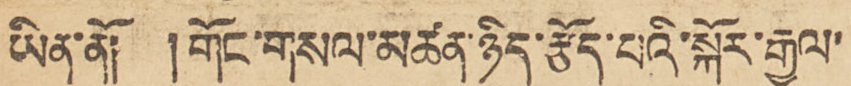ཡིན་ནོ། །གོང་གསལ་མཚན་ཉིད་རྩོད་པའི་སྐོར་རྒྱལ་
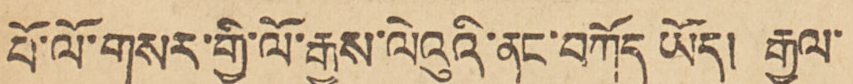པོ་ལོ་གསར་གྱི་ལོ་རྒྱུས་ལེའུའི་ནང་བཀོད ཡོད། རྒྱལ་
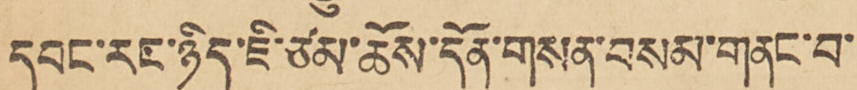དབང་རང་ཉིད་ཇི་ཙམ་ཆོས་དོན་གསན་བསམ་གནང་བ་
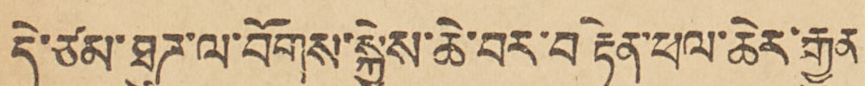དེ་ཙམ་ཐུཊ་ལ་བོགས་སྐྱེས་ཆེ་བར་བརྟེན་ཕལ་ཆེར་རྒྱུན་
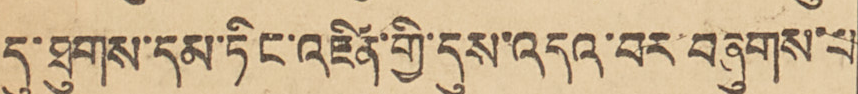དུ་ཐུགས་དམ་ཏིང་འཛིན་གྱི་དུས་འདའ་བར་བཞུགས་པ
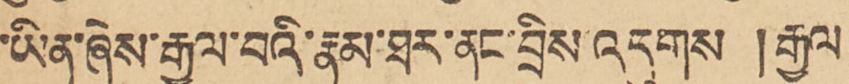ཡིན་ཞེས་རྒྱལ་བའི་རྣམ་ཐར་ནང་བྲིས འདུགས །རྒྱལ་
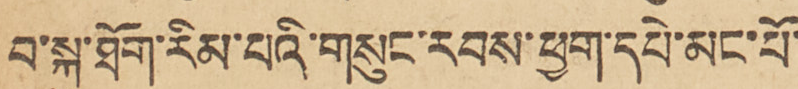བ་སྐུ་ཐོག་རིམ་པའི་གསུང་རབས་ཕྱག་དཔེ་མང་པོ་
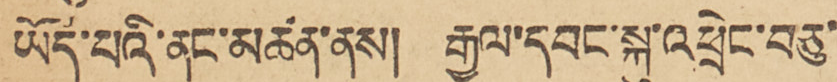ཡོད་པའི་ནང་མཚན་ནས། རྒྱལ་དབང་སྐུ་འཕྲེང་བཅུ་
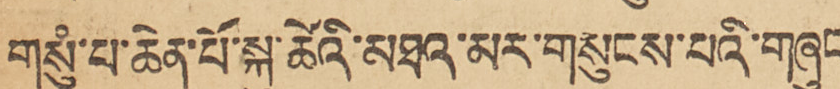གསུཾ་པ་ཆེན་པོ་སྐུ་ཚེའི་མཐའ་མར་གསུངས་པའི་གཞུང་
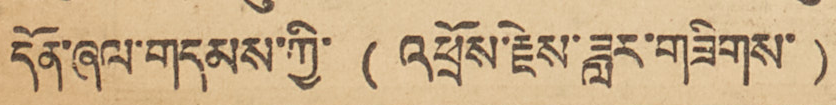དོན་ཞལ་གདམས་ཀྱི་ ( འཕྲོས་རྗེས་ཟླར་གཟིགས་ )
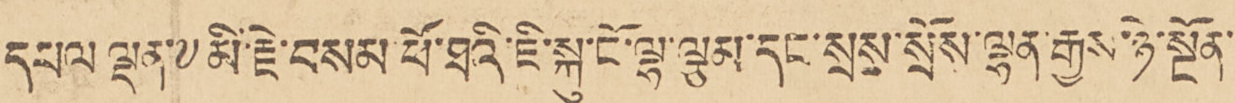དཔལ ལྡན་༸མི་རྗེ་བསམ་ཕོ་ཐའི་ཇི་སྐུ་ངོ་ལྷ་ལྕམ་དང་སྲས་སྲོས་ལྷན་རྒྱས་ཉེ་སྔོན་
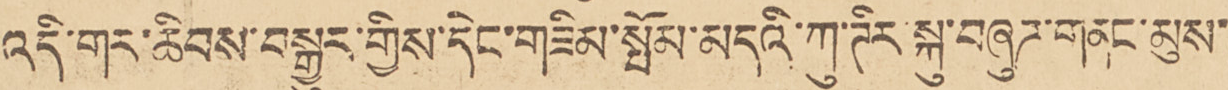འདི་གར་ཆིབས་བསྒྱུར་གྱིས་དེང་གཟིམ་སྤོས་མདའི་ཀུ་ཊིར་སྐུ་བཞུཊ་གནང་མུས་
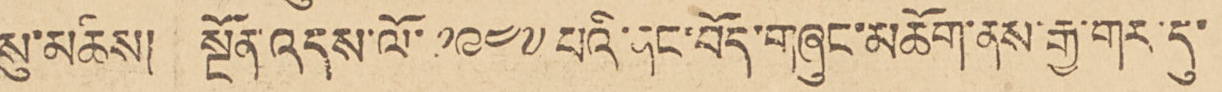སུ་མཆིས། སྔོན་འདས་ལོ་ ༡༩༤༧ པའི་ནང་བོད་གཞུང་མཆོག་ནས་རྒྱ་གར་དུ་
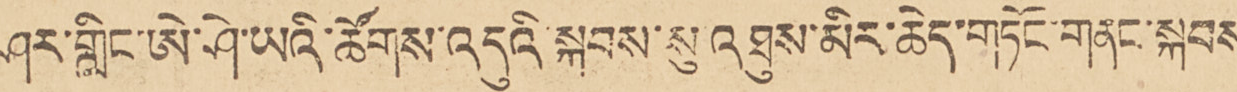ཤར་གླིང་ཨེ་ཤེ་ཡའི་ཚོགས་འདུའི་སྐབས་སུ་འཐུས་མིར་ཆེད་གཏོང་གནང་སྐབས
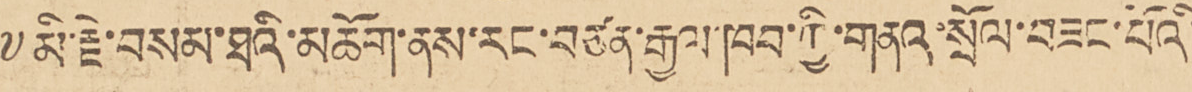༸མི་རྗེ་བསམ་ཐའི་མཆོག་ནས་རང་བཙན་རྒྱལ་ཁབ་ཀྱི་གནའ་སྲོལ་བཟང་པོའི་
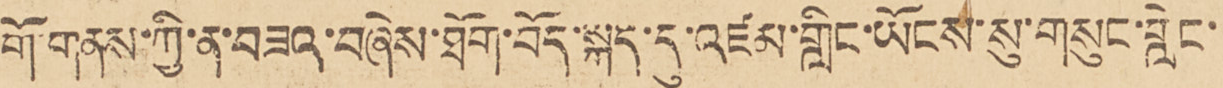གོ་གནས་ཀྱི་ན་བཟའ་བཞེས་ཐོག་བོད་སྐད་དུ་འཛམ་གློང་ཡོངས་སུ་གསུང་གླེང་
